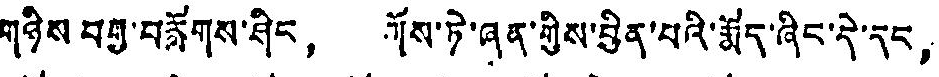གཉིས བརྒྱ་བརློགས་ཤིང， གོས་ཏེ་ཞན་གྱིས་བྱིན་པའི་རྨོད་ཞིང་དེ་དང，
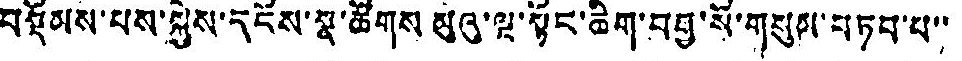བསྡོམས་པས་སྐྱེས་དངོས་སྣ་ཚོགས མུའུ་ལྔ་སྟོང་ཆིག་བབྱ་སོ་གསུམ་བཏབ་པ་་
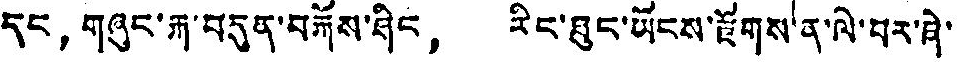དང་། གཞུང་རྐ་བདུན་བརྐོས་ཤིང， རིང་ཐུང་ཡོངས་རྫོགས་ན་ལེ་བར་ཞེ་
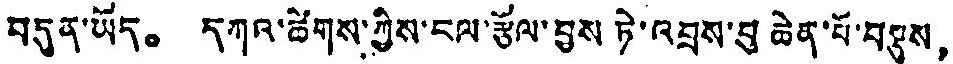བདུན་ཡོད。 དཀའ་ཚེགས་ཀྱིས་ངལ་རྩོལ་བྱས ཏེ་འབྲས་བུ ཆེན་པོ་བསྡུས，
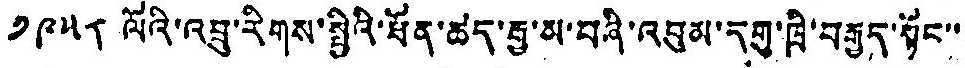༡༩༥༨ ལོའི་འབྲུ་རིགས་སྤྱིའི་ཐོན་ཚད་རྒྱ་མ་བཞི་འབུམ་དགུ་ཁྲི་བརྒྱད་སྟོང་་
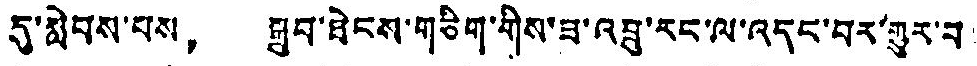དུ་སླེབས་པས， སྒྲུབ་ཐེངས་གཅིག་གིས་ཟ་འབྲུ་རང་ལ་འདང་བར་གྱུར་བ
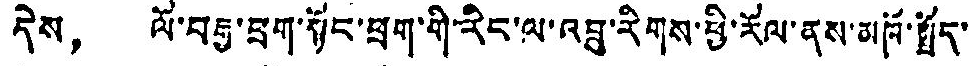དེས， ལོ་བརྒྱ་བྲག་སྟོང་ཕྲག་གི་རིང་ལ་འབྲུ་རིགས་ཕྱི་རོལ་ནས་མཁོ་སྤྲོད་་
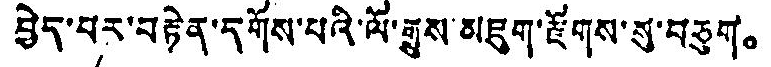བྱེད་པར་བརྟེན་དགོས་པའི་ལོ་རྒྱུས་མཇུག་རྫོགས་སུ་བཅུག。
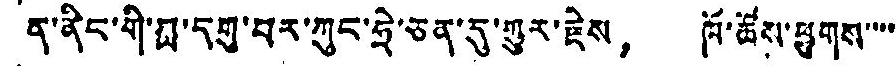ན་ནིང་གི་ཐླ་དགུ་བར་ཀུང་ཧྲེ་ཅན་དུ་གྱུར་རྗེས， ཁོ་ཚོས་ཕྱུགས་་་་
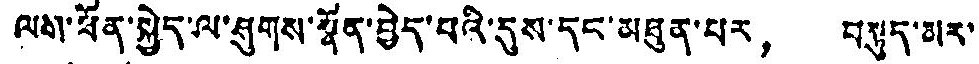ལས་ཐོན་སྐྱེད་ལ་ཤུགས་སྣོན་བྱེད་པའི་དུས་དང་མཐུན་པར， བསྟུད་མར་
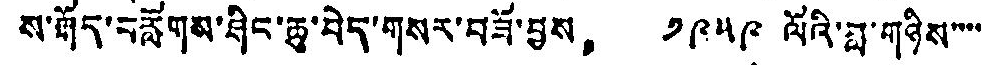ས་རྒོད་བརློགས་ཤིང་ཆུ་བེད་གསར་བཟོ་བྱས， ༡༩༥༩ ལོའི་བླ་གཉིས་་་་
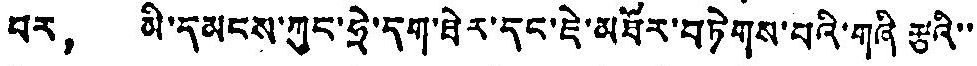བར， མི་དམངས་ཀུང་ཧྲེ་དག་ཐེར་དང་ཇེ་མཐོར་བཏེགས་པའི་གཞི རྩའི་་་
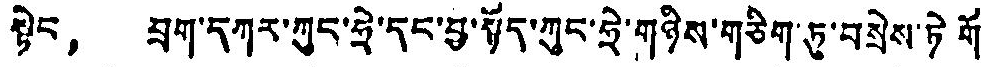སྟེང， བྲག་དཀར་ཀུང་ཧྲེ་དང་བྱ་སྟོད་ཀུང་ཧྲེ་གཉིས་གཅིག་ཏུ་བསྲེས་ཏེ གོ
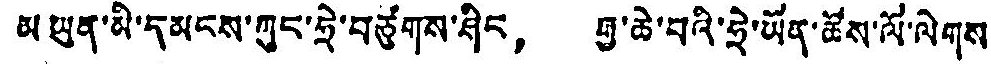མ ཡུན་མི་དམངས་ཀུང་ཧྲེ་བཙུགས་ཤིང， རྒྱ་ཆེ་བའི་ཧྲེ་ཡོན་ཚོས་ལོ་ལེགས་
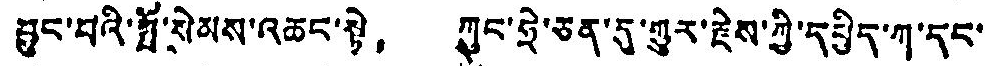བྱུང་བའི་སྤྲོ་སེམས་འཆང་སྟེ， ཀུང་ཧྲེ་ཅན་དུ་གྱུར་རྗེས་ཀྱི་དཔྱིད་ཀ་དང་
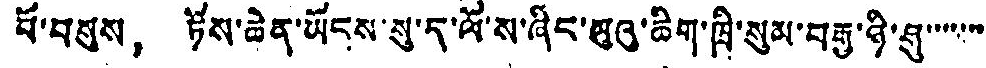པོ་བསུས， ཏོས་ཆེན་ཡོངས་སུ་ད་ལོ་ས་ཞིང་མུའུ་ཆིག་ཁྲི་སུམ་བརྒྱ་ཉི་ཤུ་་་་་་་
